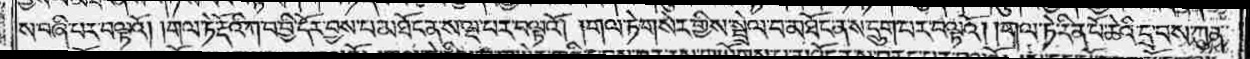ས་བཞི་པར་བལྟའོ། །གལ་ཏེ་རྡོའི་ཀ་བ་བྱི་དོར་བྱས་པ་མཐོང་ན་ས་ལྔ་པར་བལྟའོ། །གལ་ཏེ་གསེར་གྱིས་སྦྲེལ་བ་མཐོང་ན་ས་དྲུག་པར་བལྟའོ། །གལ་ཏེ་རིན་པོ་ཆེའི་དྲ་བས་ཀུན་
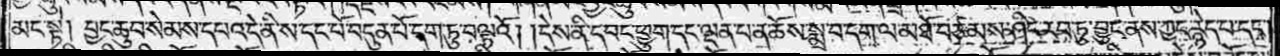མང་སྟེ། བྱང་ཆུབ་སེམས་དཔའ་དེ་ནི་ས་དང་པོ་བདུན་པོ་དག་ཏུ་བལྟའོ། །དེས་ནི་དབང་ཕྱུག་དང་ལྡན་པ་ན་ཆོས་སྨྲ་བ་དག་ལ་མཐོ་བཙམས་ཤིང་རབ་ཏུ་བྱུང་ནས་ཀྱང་རྙེད་པ་དང༌།
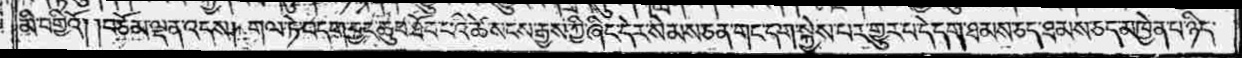མི་བགྱིའོ། །བཅོམ་ལྡན་འདས། གལ་ཏེ་བདག་བྱང་ཆུབ་ཐོབ་པའི་ཚེ་སངས་རྒྱས་ཀྱི་ཞིང་དེར་སེམས་ཅན་གང་དག་སྐྱེས་པར་གྱུར་པ་དེ་དག་ཐམས་ཅད་ཐམས་ཅད་མཁྱེན་པ་ཉིད་
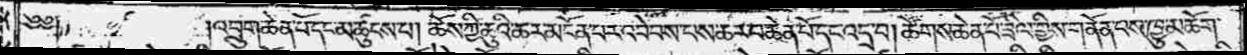༄༅༎འབྲུག་ཆེན་པོ་དང་མཚུངས་པ། ཆོས་ཀྱི་ཆུའི་ཆར་མངོན་པར་འབེབས་པས་ཆར་བ་ཆེན་པོ་དང་འདྲ་བ། ཚོགས་ཆེན་པོ་ཟིལ་གྱིས་གནོན་པས་ཁྱུ་མཆོག་
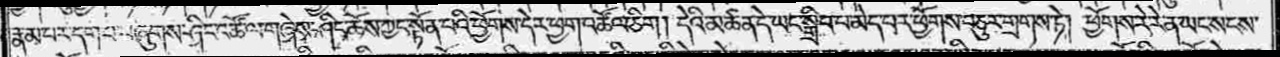རྣམ་པར་དག་པ་བཞུགས་ཤིང་འཚོ་ལ་གཞེས་ཤིང་ཆོས་ཀྱང་སྟོན་པའི་ཕྱོགས་དེར་ཕྱག་འཚོལ་ཅིག། དེའི་མཚན་དེ་ཡང་སྒྲིབ་པ་མེད་པར་ཕྱོགས་བཅུར་གྲགས་ཏེ། ཕྱོགས་རེ་རེ་ན་ཡང་སངས་
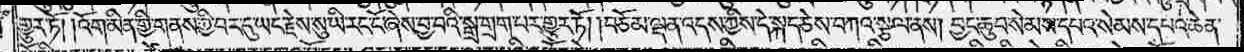གྱུར་ཏོ། །འོག་མིན་གྱི་གནས་ཀྱི་བར་དུ་ཡང་རྗེས་སུ་ཡི་རང་ངོ་ཞེས་བྱ་བའི་སྒྲ་གྲག་པར་གྱུར་ཏོ། །བཅོམ་ལྡན་འདས་ཀྱིས་དེ་སྐད་ཅེས་བཀའ་སྩལ་ནས། བྱང་ཆུབ་སེམས་དཔའ་སེམས་དཔའ་ཆེན་
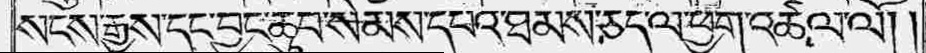སངས་རྒྱས་དང་བྱང་ཆུབ་སེམས་དཔའ་ཐམས་ཅད་ལ་ཕྱག་འཚལ་ལོ། །
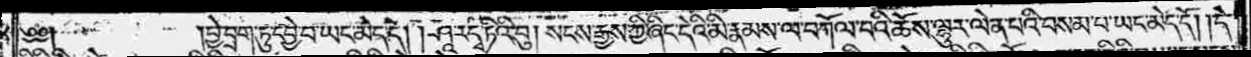༄༅༎བྱེ་བྲག་ཏུ་དབྱེ་བ་ཡང་མེད་དེ། །ཤཱ་ར་དྭ་ཏིའི་བུ། སངས་རྒྱས་ཀྱི་ཞིང་དེའི་མི་རྣམས་ལ་བཀོལ་བའི་ཆོས་ལྷུར་ལེན་པའི་བསམ་པ་ཡང་མེད་དོ། །དེ་
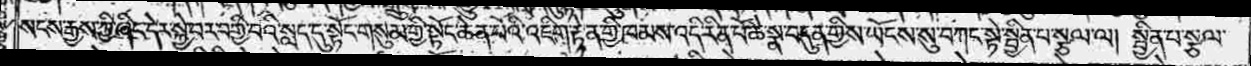སངས་རྒྱས་ཀྱི་ཞིང་དེར་སྐྱེ་བར་བགྱི་བའི་སླད་དུ་སྟོང་གསུམ་གྱི་སྟོང་ཆེན་པོའི་འཇིག་རྟེན་གྱི་ཁམས་འདི་རིན་པོ་ཆེ་སྣ་བདུན་གྱིས་ཡོངས་སུ་བཀང་སྟེ་སྦྱིན་པ་སྩལ་ལ། སྦྱིན་པ་སྩལ་
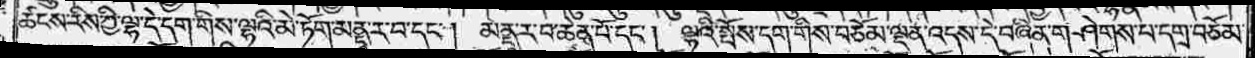ཚངས་རིས་ཀྱི་ལྷ་དེ་དག་གིས་ལྷའི་མེ་ཏོག་མནད་ར་བ་དང༌། མནྡཱ་ར་བ་ཆེན་པོ་དང༌། ལྷའི་སྤོས་དག་གིས་བཅོམ་ལྡན་འདས་དེ་བཞིན་གཤེགས་པ་དགྲ་བཅོམ་
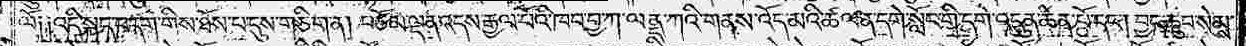ལོ༑ ༑འདི་སྐད་བདག་གིས་ཐོས་པ་དུས་གཅིག་ན། བཅོམ་ལྡན་འདས་རྒྱལ་པོའི་ཁབ་བྱ་ཀ་ལནྡ་ཀའི་གནས་འོད་མའི་ཚལ་ན་དགེ་སློང་གི་དགེ་འདུན་ཆེན་པོ་དང༌། བྱང་ཆུབ་སེམས་
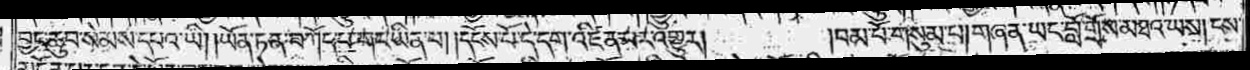བྱང་ཆུབ་སེམས་དཔའ་ཡི། །ཡོན་ཏན་བཀོད་པ་གང་ཡིན་པ། །དངོས་པོ་དེ་དག་འཛིན་པར་འགྱུར། །བམ་པོ་གསུམ་པ། གཞན་ཡང་བློ་གྲོས་མཐའ་ཡས། ངས་
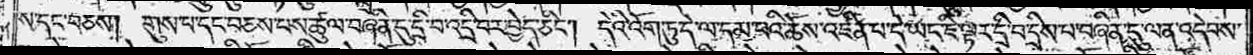ས་དང་བཅས། གུས་པ་དང་བཅས་པའི་ཚུལ་བཞིན་དུ་དྲི་བ་འདྲི་བར་བྱེད་ཅིང༌། དེའི་འོག་ཏུ་དེ་ལ་དམ་པའི་ཆོས་འཛིན་པ་དེ་ཡང་ཇི་ལྟར་དྲི་བ་དྲིས་པ་བཞིན་དུ་ལན་འདེབས་
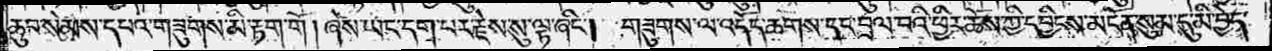ཆུབ་སེམས་དཔའ་གཟུགས་མི་རྟག་གོ །ཞེས་ཡང་དག་པར་རྗེས་སུ་ལྟ་ཞིང༌། གཟུགས་ལ་འདོད་ཆགས་དང་བྲལ་བའི་ཕྱིར་ཆོས་ཀྱི་དབྱིངས་མངོན་སུམ་དུ་མི་བྱེད་
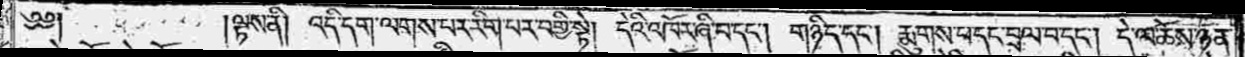༄༅༎ལྟས་ནི། འདི་དག་ལགས་པར་རིག་པར་བགྱི་སྟེ། དེའི་འཁོར་ཞི་བ་དང༌། གཉིད་དང༌། རྨུགས་པ་དང་བྲལ་བ་དང༌། དེ་ལ་ཆོས་ཉན་
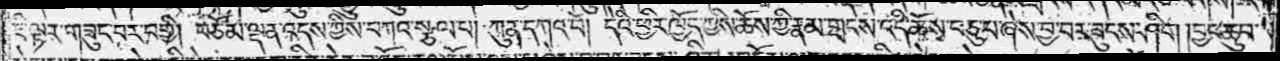ཇི་ལྟར་གཟུང་བར་བགྱི། བཅོམ་ལྡན་འདས་ཀྱིས་བཀའ་སྩལ་པ། ཀུན་དགའ་བོ། དེའི་ཕྱིར་ཁྱོད་ཀྱིས་ཆོས་ཀྱི་རྣམ་གྲངས་འདི་ཆོས་བཅུ་པ་ཞེས་བྱ་བར་ཟུངས་ཤིག །བྱང་ཆུབ་
